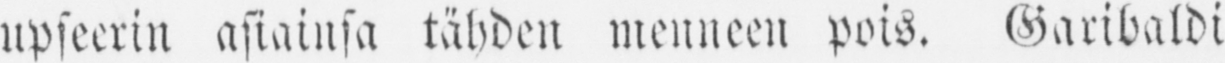upseerin asiainsa tähden menneen pois. Garibaldi
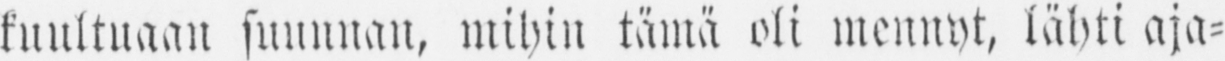kuultuaan suunnan, mihin tämä oli mennyt, lähti aja-
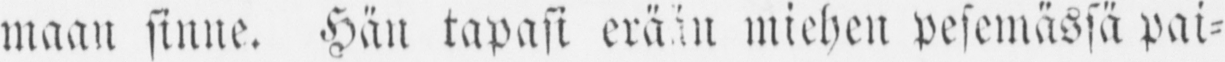maan sinne. Hän tapasi erään miehen pesemässä pai-
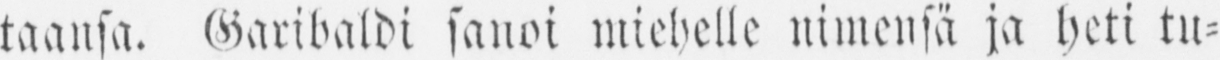taansa. Garibaldi sanoi miehelle nimensä ja heti tu-
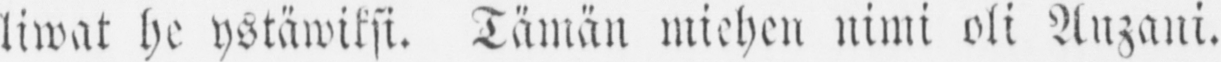liwat he ystäwiksi. Tämän miehen nimi oli Auzani.
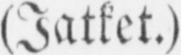(Jatket.)
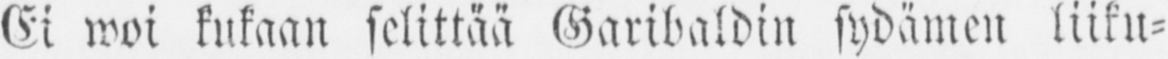Ei woi kukaan selittää Garibaldin sydämen liiku-
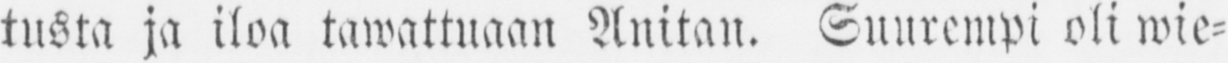tusta ja iloa tawattuaan Anitan. Suurempi oli wie-
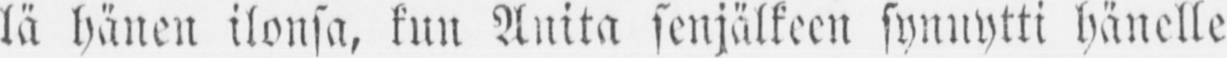lä hänen ilonsa, kun Anita senjälkeen synnytti hänelle
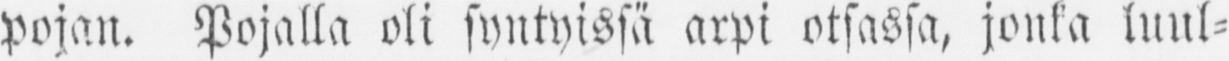pojan. Pojalla oli syntyissä arpi otsassa, jonka luul-
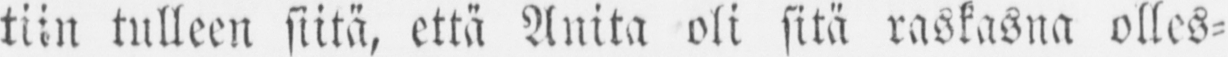tiin tulleen siitä, että Anita oli sitä raskasna olles-
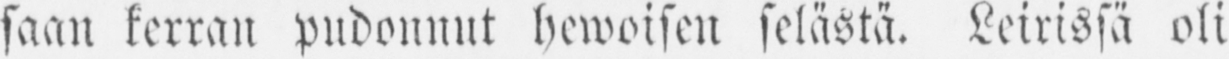saan kerran pudonnut hewoisen selästä. Leirissä oli
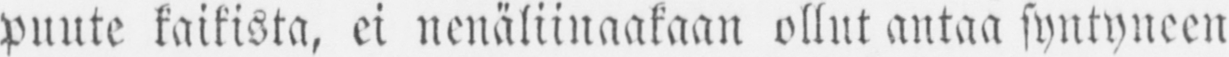puute kaikista, ei nenäliinaakaan ollut antaa syntyneen
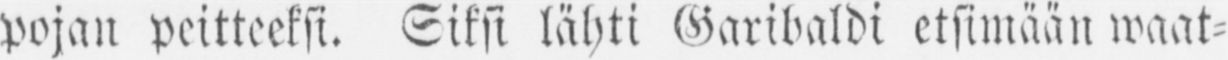pojan peitteeksi. Siksi lähti Garibaldi etsimään waat-
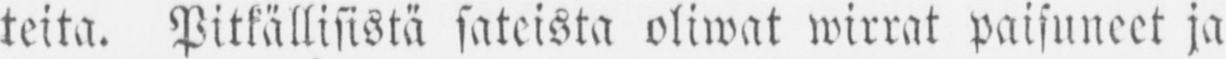teita. Pitkällisistä sateista oliwat wirrat paisuneet ja
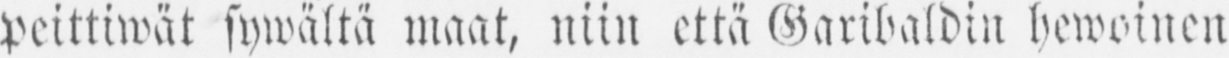peittiwät sywältä maat, niin että Garibaldin hewoinen
